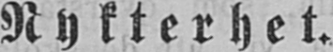Nykterhet.
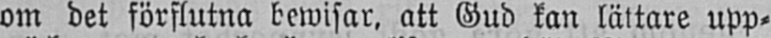om det förflutna bewisar, att Gud kan lättare upp-
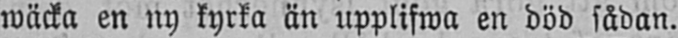wäcka en ny kyrka än upplifwa en död sådan.
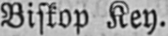Biskop Key.
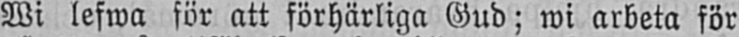Wi lefwa för att förhärliga Gud; wi arbeta för
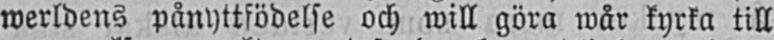werldens pånyttfödelse och will göra wår kyrka till
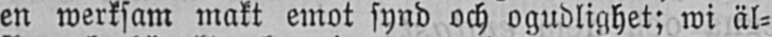en werksam makt emot synd och ogudlighet; wi äl-
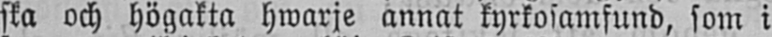ska och högakta hwarje annat kyrkosamfund, som i
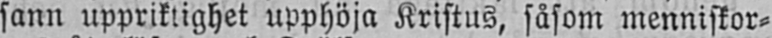sann uppriktighet upphöja Kristus, såsom menniskor-
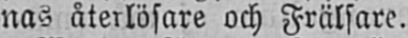nas äterlösare och Frälsare.
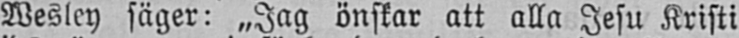Wesley säger: „Jag önskar att alla Jesu Kristi
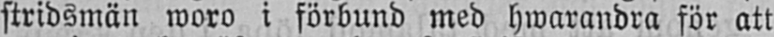stridsmän woro i förbund med hwarandra för att
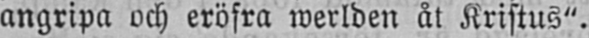angripa och eröfra werlden åt Kristus".
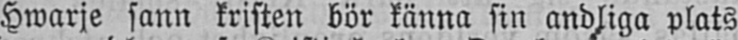Hwarje sann kristen bör känna sin andliga plats
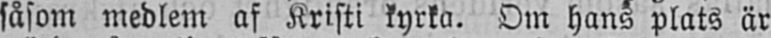såsom medlem af Kristi kyrka. Om hans plats är
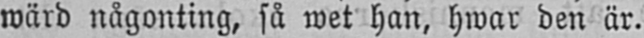wärd någonting, så wet han, hwar den är.
